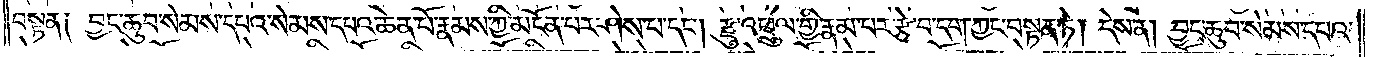བསྟན༏ བྱང་ཆུབ་སེམས་དཔའ་སེམས་དཔའ་ཆེན་པོ་རྣམས་ཀྱི་མངོན་པར་ཤེས་པ་དང༌། རྫུ་འཕྲུལ་གྱི་རྣམ་པར་རྩེ་བ་དག་ཀྱང་བསྟན་ཏོ། དེས་ན། བྱང་ཆུབ་སེམས་དཔའ་
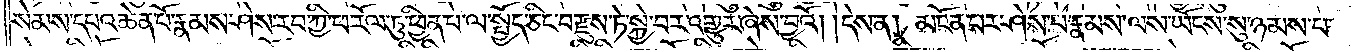སེམས་དཔའ་ཆེན་པོ་རྣམས་ཤེས་རབ་ཀྱི་ཕ་རོལ་ཏུ་ཕྱིན་པ་ལ་སྤྱོད་ཅིང༌། བརྫུས་ཏེ་སྐྱེ་བར་འགྱུར་ཞེས་བྱའོ། །དེས་ན། མངོན་པར་ཤེས་པ་རྣམས་ལས་ཡོངས་སུ་ཉམས་པ་
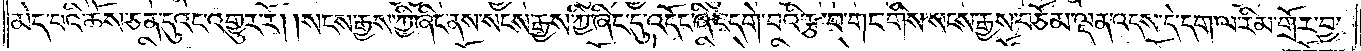མེད་པའི་ཆོས་ཅན་དུའང་འགྱུར་རོ། །སངས་རྒྱས་ཀྱི་ཞིང་ནས་སངས་རྒྱས་ཀྱི་ཞིང་དུ་འདོང་ཞིང་དག་བའི་རྩ་བ་གང་གིས་སངས་རྒྱས་བཅོམ་ལྡན་འདས་དེ་དག་ལ་རིམ་གྲོར་བྱ་
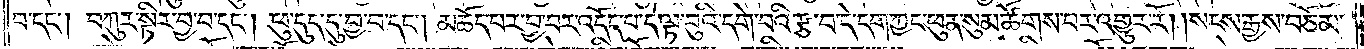བ་དང༌། བཀུར་སྟིར་བྱ་བ་དང༌། ཕུ་དུད་དུ་བྱ་བ་དང༌། མཆོད་པར་བྱ་བར་འདོད་པ་དེ་ལྟ་བུའི་དགེ་བའི་རྩ་བ་དེ་དག་ཀྱང་ཕུན་སུམ་ཚོགས་པར་འགྱུར་རོ། །སངས་རྒྱས་བཅོམ་
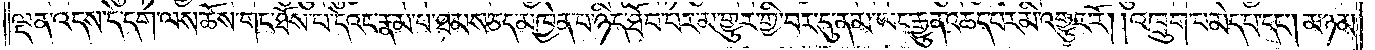ལྡན་འདས་དེ་དག་ལས་ཆོས་གང་ཐོས་པ་དེའང་རྣམ་པ་ཐམས་ཅད་མཁྱེན་པ་ཉིད་ཐོབ་པར་མ་གྱུར་གྱི་བར་དུ་ནམ་ཡང་རྒྱུན་ཆད་པར་མི་འགྱུར་རོ། །འཁྲུག་པ་མེད་པ་དང༌། མཉམ་
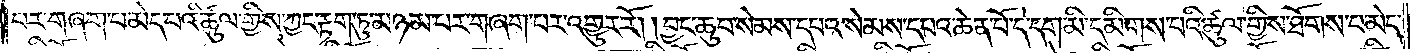པར་གཞག་པ་མེད་པའི་ཚུལ་གྱིས་ཀྱང་རྟག་ཏུ་མཉམ་པར་བཞག་པར་འགྱུར་རོ། །བྱང་ཆུབ་སེམས་དཔའ་སེམས་དཔའ་ཆེན་པོ་དེ་དག་མི་དམིགས་པའི་ཚུལ་གྱིས་ཐོགས་པ་མེད་
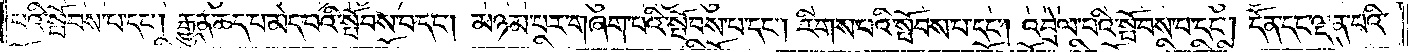པའི་སྤོབས་པ་དང༌། རྒྱུན་ཆད་པ་མེད་པའི་སྤོབས་པ་དང༌། མཉམ་པར་གཞག་པའི་སྤོབས་པ་དང༌། རིགས་པའི་སྤོབས་པ་དང༌། འབྲེལ་པའི་སྤོབས་པ་དང༌། དོན་དང་ལྡན་པའི་
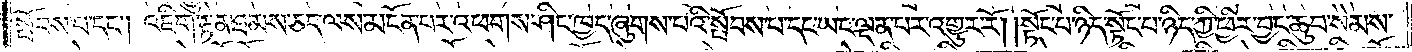སྤོབས་པ་དང༌། འཇིག་རྟེན་ཐམས་ཅད་ལས་མངོན་པར་འཕགས་ཤིང་ཁྱད་ཞུགས་པའི་སྤོབས་པ་དང་ཡང་ལྡན་པར་འགྱུར་རོ། །སྟོང་པ་ཉིད་སྟོང་པ་ཉིད་ཀྱི་ཕྱིར་བྱང་ཆུབ་སེམས་
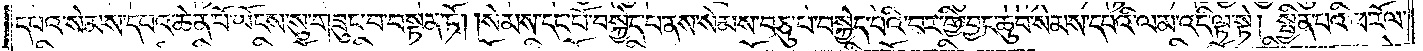དཔའ་སེམས་དཔའ་ཆེན་པོ་ཡོངས་སུ་བཟུང་བ་བསྟན་ཏོ། །སེམས་དང་པོ་བསྐྱེད་པ་ནས་སེམས་བཅུ་པ་བསྐྱེད་པའི་བར་གྱི་བྱང་ཆུབ་སེམས་དཔའི་ལམ་འདི་ལྟ་སྟེ། སྦྱིན་པའི་ཕ་རོལ་
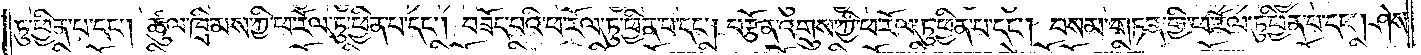ཏུ་ཕྱིན་པ་དང༌། ཚུལ་ཁྲིམས་ཀྱི་ཕ་རོལ་ཏུ་ཕྱིན་པ་དང༌། བཟོད་པའི་ཕ་རོལ་ཏུ་ཕྱིན་པ་དང༌། བརྩོན་འགྲུས་ཀྱི་ཕ་རོལ་ཏུ་ཕྱིན་པ་དང༌། བསམ་གཏན་གྱི་ཕ་རོལ་ཏུ་ཕྱིན་པ་དང༌། ཤེས་
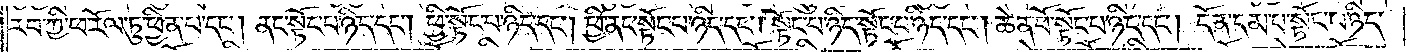རབ་ཀྱི་ཕ་རོལ་ཏུ་ཕྱིན་པ་དང༌། ནང་སྟོང་པ་ཉིད་དང༌། ཕྱི་སྟོང་པ་ཉིད་དང༌། ཕྱི་ནང་སྟོང་པ་ཉིད་དང༌། སྟོང་པ་ཉིད་སྟོང་པ་ཉིད་དང༌། ཆེན་པོ་སྟོང་པ་ཉིད་དང༌། དོན་དམ་པ་སྟོང་པ་ཉིད་
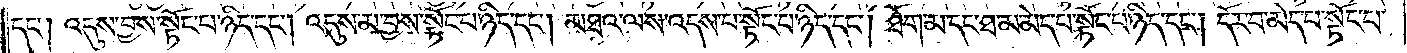དང༌། འདུས་བྱས་སྟོང་པ་ཉིད་དང༌། འདུས་མ་བྱས་སྟོང་པ་ཉིད་དང༌། མཐའ་ལས་འདས་པ་སྟོང་པ་ཉིད་དང༌། ཐོག་མ་དང་ཐ་མ་མེད་པ་སྟོང་པ་ཉིད་དང༌། དོར་བ་མེད་པ་སྟོང་པ་
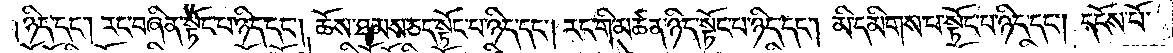ཉིད་དང༌། རང་བཞིན་སྟོང་པ་ཉིད་དང༌། ཆོས་ཐམས་ཅད་སྟོང་པ་ཉིད་དང༌། རང་གི་མཚན་ཉིད་སྟོང་པ་ཉིད་དང༌། མི་དམིགས་པ་སྟོང་པ་ཉིད་དང༌། དངོས་པོ་
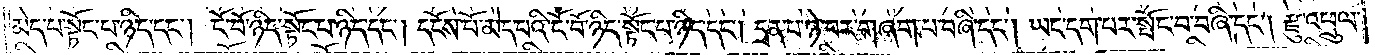མེད་པ་སྟོང་པ་ཉིད་དང༌། ངོ་བོ་ཉིད་སྟོང་པ་ཉིད་དང༌། དངོས་པོ་མེད་པའི་ངོ་བོ་ཉིད་སྟོང་པ་ཉིད་དང༌། དྲན་པ་ཉེ་བར་བཞག་པ་བཞི་དང༌། ཡང་དག་པར་སྤོང་བ་བཞི་དང༌། རྫུ་འཕྲུལ་
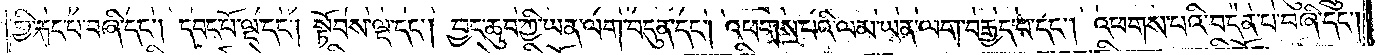གྱི་རྐང་པ་བཞི་དང༌། དབང་པོ་ལྔ་དང༌། སྟོབས་ལྔ་དང༌། བྱང་ཆུབ་ཀྱི་ཡན་ལག་བདུན་དང༌། འཕགས་པའི་ལམ་ཡན་ལག་བརྒྱད་པ་དང༌། འཕགས་པའི་བདེན་པ་བཞི་དང༌།
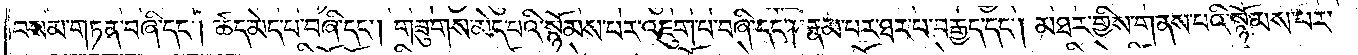བསམ་གཏན་བཞི་དང༌། ཚད་མེད་པ་བཞི་དང༌། གཟུགས་མེད་པའི་སྙོམས་པར་འཇུག་པ་བཞི་དང༌། རྣམ་པར་ཐར་པ་བརྒྱད་དང༌། མཐར་གྱིས་གནས་པའི་སྙོམས་པར་
